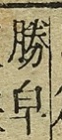勝皁
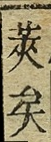莢矣
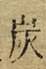炭
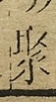聚
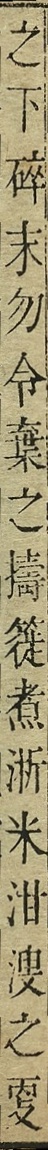之下碎末勿令棄之擣簁煮淅米泔溲之更
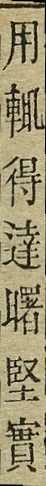用輒得達曙堅實
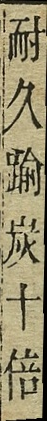耐久踰炭十倍
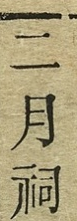二月祠
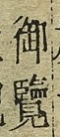御覽
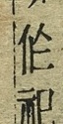倫祀
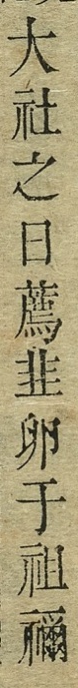大社之日薦韭卵于祖禰
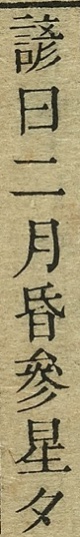諺曰二月昏參星夕
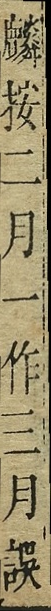麟按二月一作三月誤
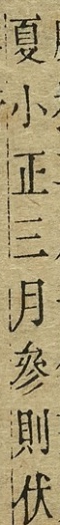夏小正三月參則伏
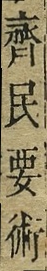齊民要術
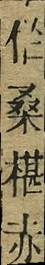倫桑椹赤
